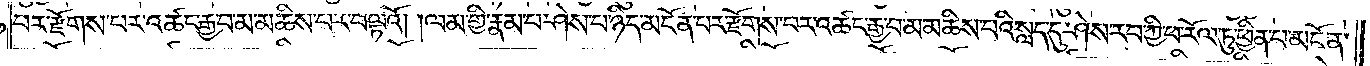པར་རྫོགས་པར་འཚང་རྒྱ་བ་མ་མཆིས་པར་བལྟའོ། །ལམ་གྱི་རྣམ་པ་ཤེས་པ་ཉིད་མངོན་པར་རྫོགས་པར་འཚང་རྒྱ་བ་མ་མཆིས་པའི་སླད་དུ་ཤེས་རབ་ཀྱི་ཕ་རོལ་ཏུ་ཕྱིན་པ་མངོན་
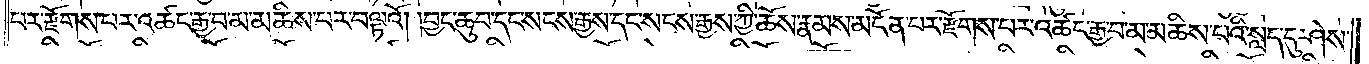པར་རྫོགས་པར་འཚང་རྒྱ་བ་མ་མཆིས་པར་བལྟའོ། །བྱང་ཆུབ་དང་སངས་རྒྱས་དང་སངས་རྒྱས་ཀྱི་ཆོས་རྣམས་མངོན་པར་རྫོགས་པར་འཚང་རྒྱ་བ་མ་མཆིས་པའི་སླད་དུ་ཤེས་
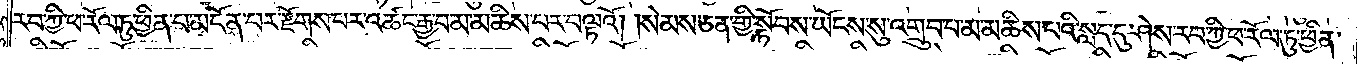རབ་ཀྱི་ཕ་རོལ་ཏུ་ཕྱིན་པ་མངོན་པར་རྫོགས་པར་འཚང་རྒྱ་བ་མ་མཆིས་པར་བལྟའོ། །སེམས་ཅན་གྱི་སྟོབས་ཡོངས་སུ་འགྲུབ་པ་མ་མཆིས་པའི་སླད་དུ་ཤེས་རབ་ཀྱི་ཕ་རོལ་ཏུ་ཕྱིན་
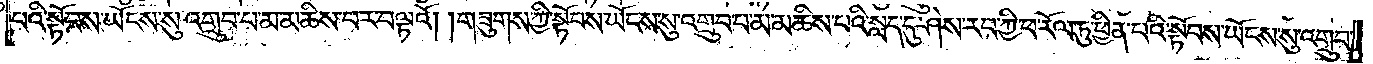པའི་སྟོབས་ཡོངས་སུ་འགྲུབ་པ་མ་མཆིས་པར་བལྟའོ། །གཟུགས་ཀྱི་སྟོབས་ཡོངས་སུ་འགྲུབ་པ་མ་མཆིས་པའི་སླད་དུ་ཤེས་རབ་ཀྱི་ཕ་རོལ་ཏུ་ཕྱིན་པའི་སྟོབས་ཡོངས་སུ་འགྲུབ་
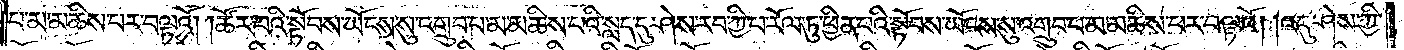པ་མ་མཆིས་པར་བལྟའོ། །ཚོར་བའི་སྟོབས་ཡོངས་སུ་འགྲུབ་པ་མ་མཆིས་པའི་སླད་དུ་ཤེས་རབ་ཀྱི་ཕ་རོལ་ཏུ་ཕྱིན་པའི་སྟོབས་ཡོངས་སུ་འགྲུབ་པ་མ་མཆིས་པར་བལྟའོ། །འདུ་ཤེས་ཀྱི་
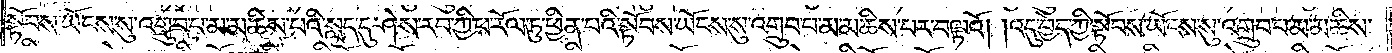སྟོབས་ཡོངས་སུ་འགྲུབ་པ་མ་མཆིས་པའི་སླད་དུ་ཤེས་རབ་ཀྱི་ཕ་རོལ་ཏུ་ཕྱིན་པའི་སྟོབས་ཡོངས་སུ་འགྲུབ་པ་མ་མཆིས་པར་བལྟའོ། །འདུ་བྱེད་ཀྱི་སྟོབས་ཡོངས་སུ་འགྲུབ་པ་མ་མཆིས་
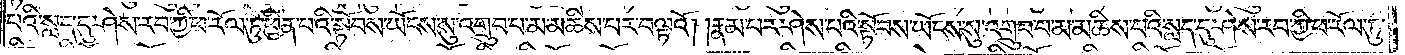པའི་སླད་དུ་ཤེས་རབ་ཀྱི་ཕ་རོལ་ཏུ་ཕྱིན་པའི་སྟོབས་ཡོངས་སུ་འགྲུབ་པ་མ་མཆིས་པར་བལྟའོ། །རྣམ་པར་ཤེས་པའི་སྟོབས་ཡོངས་སུ་འགྲུབ་པ་མ་མཆིས་པའི་སླད་དུ་ཤེས་རབ་ཀྱི་ཕ་རོལ་ཏུ་
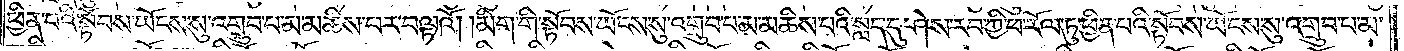ཕྱིན་པའི་སྟོབས་ཡོངས་སུ་འགྲུབ་པ་མ་མཆིས་པར་བལྟའོ། །མིག་གི་སྟོབས་ཡོངས་སུ་འགྲུབ་པ་མ་མཆིས་པའི་སླད་དུ་ཤེས་རབ་ཀྱི་ཕ་རོལ་ཏུ་ཕྱིན་པའི་སྟོབས་ཡོངས་སུ་འགྲུབ་པ་མ་
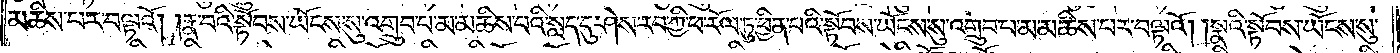མཆིས་པར་བལྟའོ། །རྣ་བའི་སྟོབས་ཡོངས་སུ་འགྲུབ་པ་མ་མཆིས་པའི་སླད་དུ་ཤེས་རབ་ཀྱི་ཕ་རོལ་ཏུ་ཕྱིན་པའི་སྟོབས་ཡོངས་སུ་འགྲུབ་པ་མ་མཆིས་པར་བལྟའོ། །སྣའི་སྟོབས་ཡོངས་སུ་
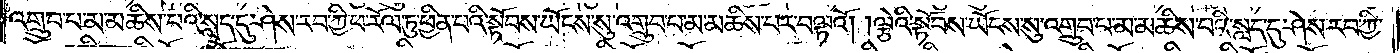འགྲུབ་པ་མ་མཆིས་པའི་སླད་དུ་ཤེས་རབ་ཀྱི་ཕ་རོལ་ཏུ་ཕྱིན་པའི་སྟོབས་ཡོངས་སུ་འགྲུབ་པ་མ་མཆིས་པར་བལྟའོ། །ལྕེའི་སྟོབས་ཡོངས་སུ་འགྲུབ་པ་མ་མཆིས་པའི་སླད་དུ་ཤེས་རབ་ཀྱི་
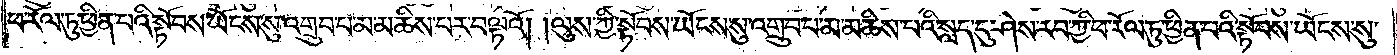ཕ་རོལ་ཏུ་ཕྱིན་པའི་སྟོབས་ཡོངས་སུ་འགྲུབ་པ་མ་མཆིས་པར་བལྟའོ། །ལུས་ཀྱི་སྟོབས་ཡོངས་སུ་འགྲུབ་པ་མ་མཆིས་པའི་སླད་དུ་ཤེས་རབ་ཀྱི་ཕ་རོལ་ཏུ་ཕྱིན་པའི་སྟོབས་ཡོངས་སུ་
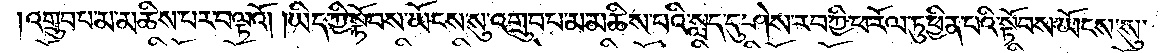འགྲུབ་པ་མ་མཆིས་པར་བལྟའོ། །ཡིད་ཀྱི་སྟོབས་ཡོངས་སུ་འགྲུབ་པ་མ་མཆིས་པའི་སླད་དུ་ཤེས་རབ་ཀྱི་ཕ་རོལ་ཏུ་ཕྱིན་པའི་སྟོབས་ཡོངས་སུ་
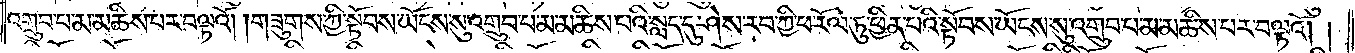འགྲུབ་པ་མ་མཆིས་པར་བལྟའོ། །གཟུགས་ཀྱི་སྟོབས་ཡོངས་སུ་འགྲུབ་པ་མ་མཆིས་པའི་སླད་དུ་ཤེས་རབ་ཀྱི་ཕ་རོལ་ཏུ་ཕྱིན་པའི་སྟོབས་ཡོངས་སུ་འགྲུབ་པ་མ་མཆིས་པར་བལྟའོ། །
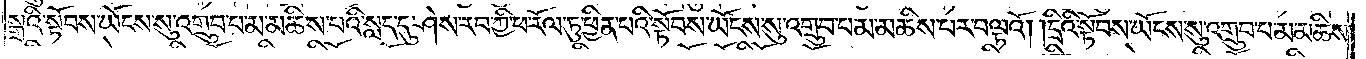སྒྲའི་སྟོབས་ཡོངས་སུ་འགྲུབ་པ་མ་མཆིས་པའི་སླད་དུ་ཤེས་རབ་ཀྱི་ཕ་རོལ་ཏུ་ཕྱིན་པའི་སྟོབས་ཡོངས་སུ་འགྲུབ་པ་མ་མཆིས་པར་བལྟའོ། །དྲིའི་སྟོབས་ཡོངས་སུ་འགྲུབ་པ་མ་མཆིས་
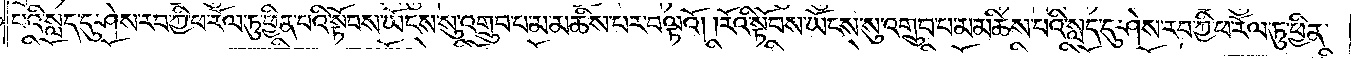པའི་སླད་དུ་ཤེས་རབ་ཀྱི་ཕ་རོལ་ཏུ་ཕྱིན་པའི་སྟོབས་ཡོངས་སུ་འགྲུབ་པ་མ་མཆིས་པར་བལྟའོ། །རོའི་སྟོབས་ཡོངས་སུ་འགྲུབ་པ་མ་མཆིས་པའི་སླད་དུ་ཤེས་རབ་ཀྱི་ཕ་རོལ་ཏུ་ཕྱིན་
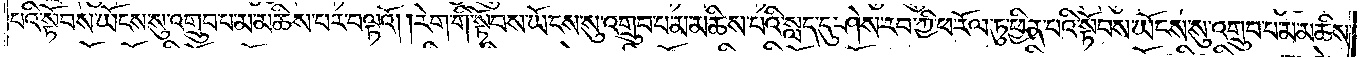པའི་སྟོབས་ཡོངས་སུ་འགྲུབ་པ་མ་མཆིས་པར་བལྟའོ། །རེག་གི་སྟོབས་ཡོངས་སུ་འགྲུབ་པ་མ་མཆིས་པའི་སླད་དུ་ཤེས་རབ་ཀྱི་ཕ་རོལ་ཏུ་ཕྱིན་པའི་སྟོབས་ཡོངས་སུ་འགྲུབ་པ་མ་མཆིས་
